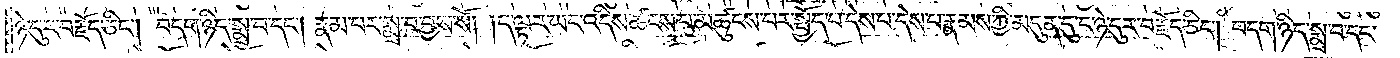ཉེ་དུར་བརྗོད་ཅིང༌། བདག་ཉིད་སྨྲ་བ་དང༌། རྣམ་པར་སྨྲ་བ་བྱས་སོ། །ད་ལྟར་ཡང་འདིས་ཚངས་པ་མཚུངས་པར་སྤྱོད་པ་དེས་པ་དེས་པ་རྣམས་ཀྱི་མདུན་དུ་ང་ཉེ་དུར་བརྗོད་ཅིང༌། བདག་ཉིད་སྨྲ་བ་དང་
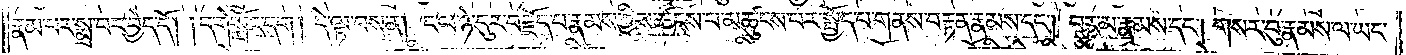རྣམ་པར་སྨྲ་བར་བྱེད་དོ། །དགེ་སློང་དག། དེ་ལྟ་བས་ན། ང་ལ་ཉེ་དུར་བརྗོད་པ་རྣམས་ཀྱིས་ཚངས་པ་མཚུངས་པར་སྤྱོད་པ་གནས་བརྟན་རྣམས་དང༌། བར་མ་རྣམས་དང༌། གསར་བུ་རྣམས་ལ་ཡང་
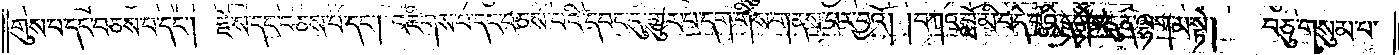གུས་པ་དང་བཅས་པ་དང༌། རྗེ་ས་དང་བཅས་པ་དང༌། འཇིགས་པ་དང་བཅས་པའི་དབང་དུ་གྱུར་པ་དག་གིས་གནས་པར་བྱའོ། །བཀའ་བློ་མི་བདེ་བའི་དགེ་འདུན་ལྷག་མ་སྟེ། བཅུ་གསུམ་པ་
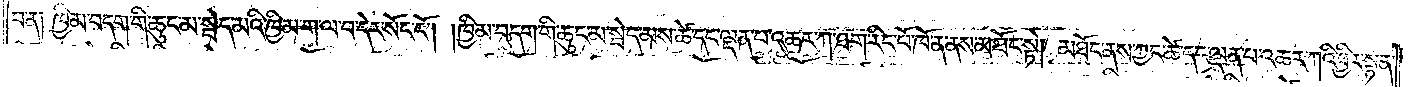པ་ན། ཁྱིམ་བདག་གི་ཆུང་མ་སྦེད་མའི་ཁྱིམ་ག་ལ་བ་དེར་སོང་ངོ༌། །ཁྱིམ་བདག་གི་ཆུང་མ་སྦེད་མས་ཚེ་དང་ལྡན་པ་འཆར་ཀ་ཐག་རིང་པོ་ཁོ་ན་ནས་མཐོང་སྟེ། མཐོང་ནས་ཀྱང་ཚེ་དང་ལྡན་པ་འཆར་ཀའི་ཕྱིར་སྟན་
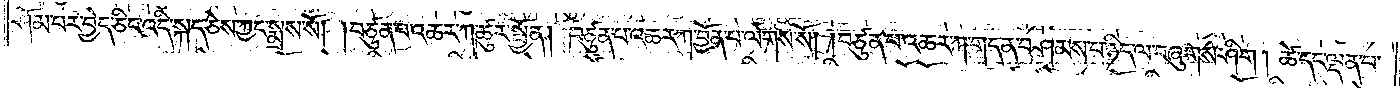ཤོམ་པར་བྱེད་ཅིང་འདི་སྐད་ཅེས་ཀྱང་སྨྲས་སོ། །བཙུན་པ་འཆར་ཀ་ཚུར་སྤྱོན། བཙུན་པ་འཆར་ཀ་བྱོན་པ་ལེགས་སོ། །བཙུན་པ་འཆར་ཀ་གདན་བཤམས་པ་ཉིད་ལ་བཞུགས་ཤིག །ཚེ་དང་ལྡན་པ་
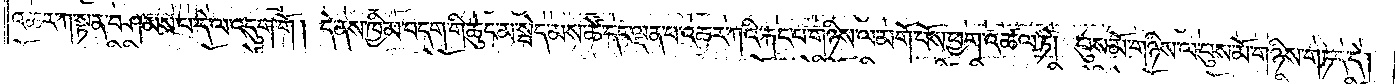འཆར་ཀ་སྟན་བཤམས་པ་དེ་ལ་འདུག་གོ། དེ་ནས་ཁྱིམ་བདག་གི་ཆུང་མ་སྦེད་མས་ཚེ་དང་ལྡན་པ་འཆར་ཀའི་རྐང་པ་གཉིས་ལ་མགོ་བོས་ཕྱག་འཚལ་ཏེ། པུས་མོ་གཉིས་ལ་པུས་མོ་གཉིས་གཏད་དེ།
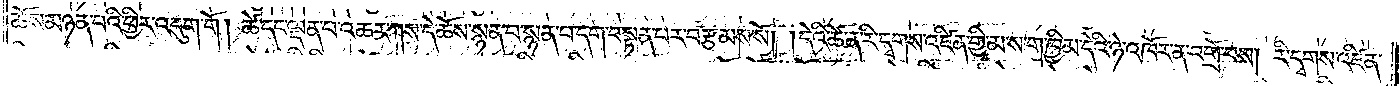ཆོས་མཉན་པའི་ཕྱིར་འདུག་གོ །ཚེ་དང་ལྡན་པ་འཆར་ཀས་དེ་ཆོས་སྙན་པ་སྙན་པ་དག་བསྟན་པར་བརྩམས་སོ། །དེའི་ཚེ་ན་རི་དྭགས་འཛིན་གྱི་མ་ས་ག་ཁྱིམ་དེའི་ཉེ་འཁོར་ན་འགྲོ་བས། རི་དྭགས་འཛིན་
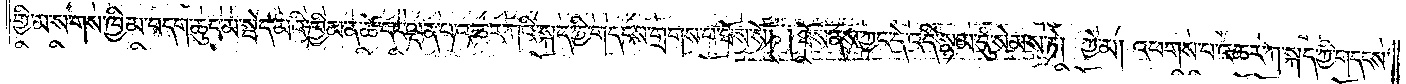གྱི་མ་ས་གས་ཁྱིམ་བདག་ཆུང་མ་སྦེད་མའི་ཁྱིམ་ན་ཚེ་དང་ལྡན་པ་འཆར་ཀའི་སྐད་ཀྱི་གདངས་གྲགས་པ་ཐོས་སོ། །ཐོས་ནས་ཀྱང་དེ་འདི་སྙམ་དུ་སེམས་ཏེ། ཀྱེ་མ། འཕགས་པ་འཆར་ཀ་སྐད་ཀྱི་གདངས་
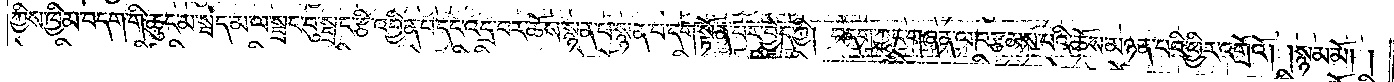ཀྱིས་ཁྱིམ་བདག་གི་ཆུང་མ་སྦེད་མ་ལ་སྦྲང་བུ་སྦྲང་རྩི་འབྱིན་པ་དང་འདྲ་བར་ཆོས་སྙན་པ་སྙན་པ་དག་སྟོན་པར་བྱེད་ཀྱི། བདག་ཀྱང་གཞན་ལ་བརྩམས་པའི་ཆོས་མཉན་པའི་ཕྱིར་འགྲོའོ། །སྙམ་མོ། །
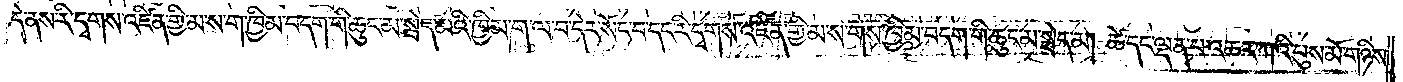དེ་ནས་རི་དྭགས་འཛིན་གྱི་མ་ས་ག་ཁྱིམ་བདག་གི་ཆུང་མ་སྦེད་མའི་ཁྱིམ་ག་ལ་བ་དེར་སོང་བ་དང་རི་དྭགས་འཛིན་གྱི་མ་ས་གས་ཁྱིམ་བདག་གི་ཆུང་མ་སྦེད་མ། ཚེ་དང་ལྡན་པ་འཆར་ཀའི་པུས་མོ་གཉིས་
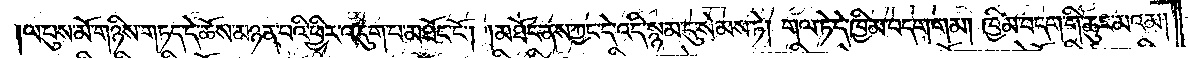ལ་པུས་མོ་གཉིས་གཏད་དེ་ཆོས་མཉན་པའི་ཕྱིར་འདུག་པ་མཐོང་ངོ༌། །མཐོང་ནས་ཀྱང་དེ་འདི་སྙམ་དུ་སེམས་ཏེ། གལ་ཏེ་དེ་ཁྱིམ་བདག་གམ། ཁྱིམ་བདག་གི་ཆུང་མའམ།
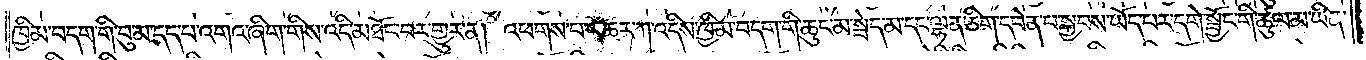ཁྱིམ་བདག་གི་བུ་མ་དད་པ་འགའ་ཞིག་གིས་འདི་མཐོང་བར་གྱུར་ན། འཕགས་པ་འཆར་ཀ་འདིས་ཁྱིམ་བདག་གི་ཆུང་མ་སྦེད་མ་དང་ལྷན་ཅིག་དབེན་པ་སྐྱབས་ཡོད་པར་དགེ་སྦྱོང་གི་ཚུལ་མ་ཡིན་
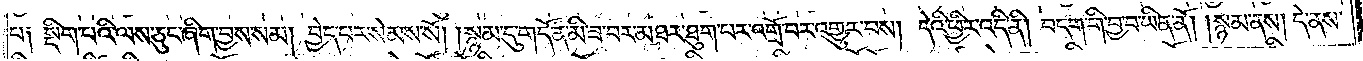པ༑ སྡིག་པའི་ལས་ཅུང་ཞིག་བྱས་སམ། བྱེད་པར་སེམས་སོ། །སྙམ་དུ་གདོན་མི་ཟ་བར་མཐར་ཐུག་པར་འགྲོ་བར་འགྱུར་བས། དེའི་ཕྱིར་འདི་ནི། བདག་གི་བྱ་བ་ཡིན་ནོ། །སྙམ་ནས། དེ་ནས་
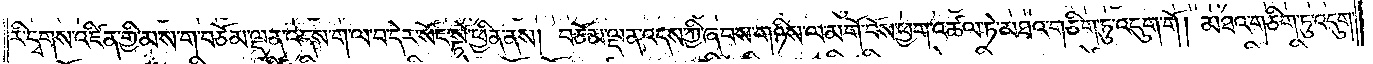རི་དྭགས་འཛིན་གྱི་མ་ས་ག་བཅོམ་ལྡན་འདས་ག་ལ་བ་དེར་སོང་སྟེ་ཕྱིན་ནས། བཅོམ་ལྡན་འདས་ཀྱི་ཞབས་གཉིས་ལ་མགོ་བོས་ཕྱག་འཚལ་ཏེ་མཐའ་གཅིག་ཏུ་འདུག་གོ། མཐའ་གཅིག་ཏུ་འདུག་
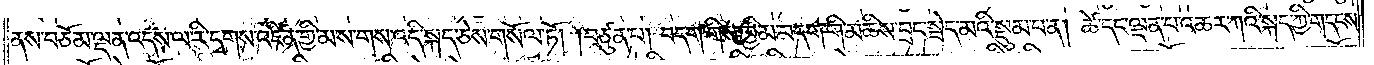ནས་བཅོམ་ལྡན་འདས་ལ་རི་དྭགས་འཛིན་གྱི་མ་ས་གས་འདི་སྐད་ཅེས་གསོལ་ཏོ། །བཙུན་པ། བདག་གིས་ཁྱིམ་བདག་གི་མཆིས་བྲང་སྦེད་མའི་སྡུམ་པ་ན། ཚེ་དང་ལྡན་པ་འཆར་ཀའི་སྐད་ཀྱི་གདངས་
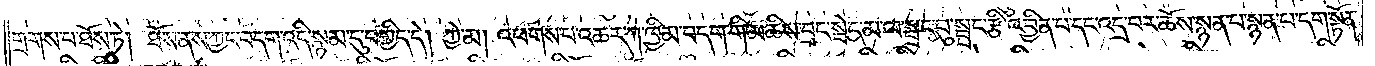གྲགས་པ་ཐོས་ཏེ། ཐོས་ནས་ཀྱང་བདག་འདི་སྙམ་དུ་བགྱིད་དེ། ཀྱེ་མ། འཕགས་པ་འཆར་ཀ་ཁྱིམ་བདག་གི་མཆིས་བྲང་སྦེད་མ་ལ་སྦྲང་བུ་སྦྲང་རྩི་འབྱིན་པ་དང་འདྲ་བར་ཆོས་སྙན་པ་སྙན་པ་དག་སྟོན་
